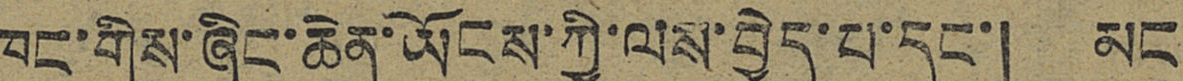ཁང་གིས་ཞིང་ཆེན་ཡོངས་ཀྱི་ལས་བྱེད་པ་དང་། མང
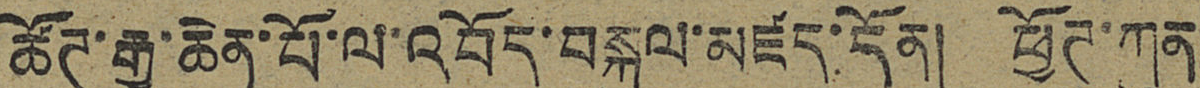ཚོཊ་རྒྱ་ཆེན་པོ་ལ་འབོད་བསྐུལ་མཛད་དོན། ཕྱོཊ་ཀུན
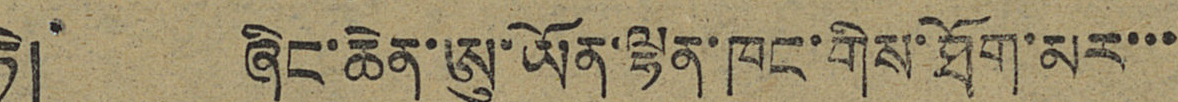ཏེ། ཞིང་ཆེན་ཨུ་ཡོན་ལྷན་ཁང་གིས་ཐོག་མར་་་
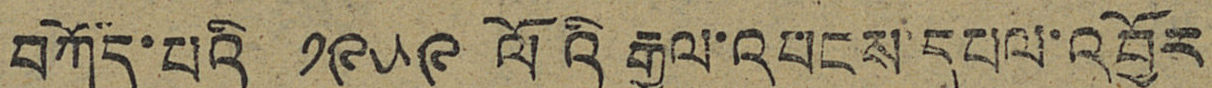བཀོད་པའི ༡༩༥༩ ལོའི རྒྱལ་འབངས་དཔལ་འབྱོར
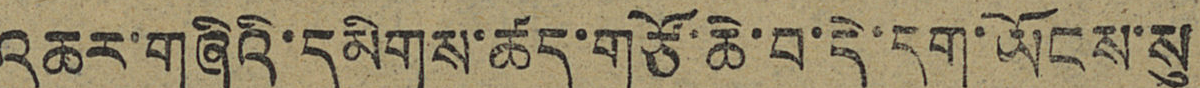འཆར་གཞིའི་དམིགས་ཚད་གཙོ་ཆེ་བ་དེ་དག་ཡོངས་སུ
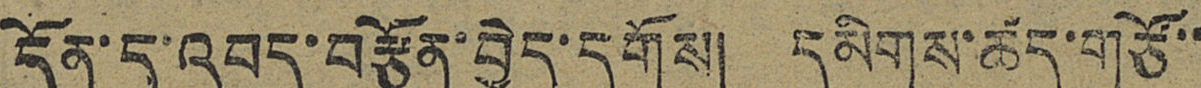དོན་དུ་འབད་བརྩོན་བྱེད་དགོས། དམིགས་ཚད་གཙོ་་
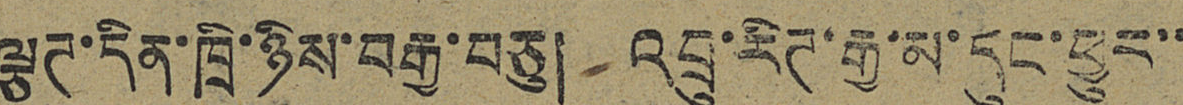ལྕཊ་དིན་ཁྲི་ཉིས་བརྒྱ་བཅུ། འབྲུ་རིཊ་རྒྱ་མ་དུང་ཕྱུར་་
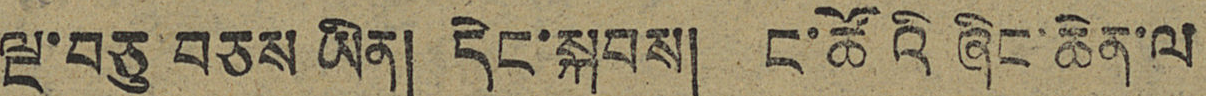ལྔ་བཅུ བཅས ཡིན། དེང་སྐབས། ང་ཚོའི ཞིང་ཆེན་ལ
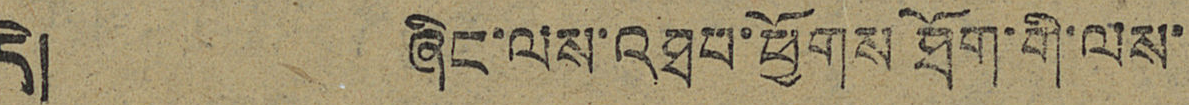དེ། ཞིང་ལས་འཐབ་ཕྱོགས ཐོག་གི་ལས་
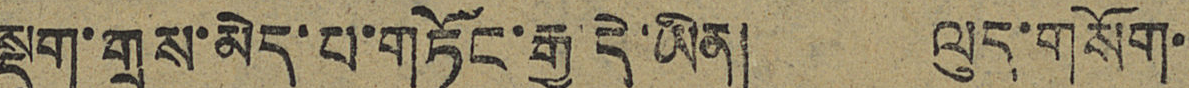སྡུག་གྲས་མེད་པ་གཏོང་རྒྱུ་དེ་ཡིན། ལུད་གསོག་
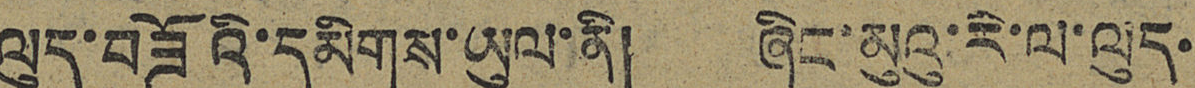ལུད་བཟོའི་དམིགས་ཡུལ་ནི། ཞིང་མུའུ་རེ་ལ་ལུད་
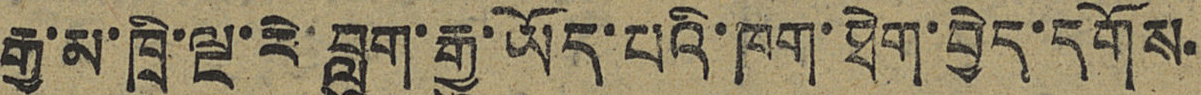རྒྱ་མ་ཁྲི་ལྔ་རེ་བླུག་རྒྱུ་ཡོད་པའི་ཁག་ཐེག་བྱེད་དགོས་
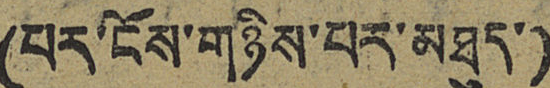(པར་ངོས་གཉིས་པར་མཐུད་)
